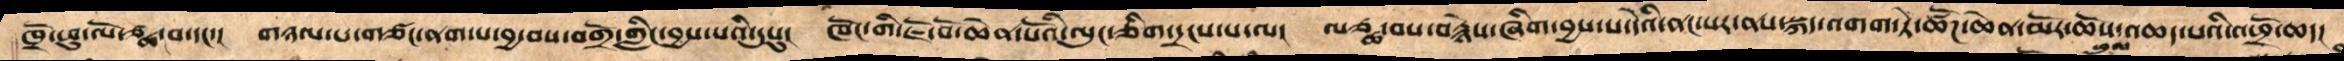ཁྲོ་ཕུ་ལོཙྪ་བ་དང་།   གཉལ་པ་གཙང་ནག་པ་བྱ་བས་བགྲོ་གླིང་བྱས་པའི་དུསུ།  ཁོང་གི་ཇོ་བོ་ཆེན་པོའི་ལུང་ཅིག་དྲངས་པ་ལ།   ལོཙྪ་བས་ཁ་བརྙེས་ཞིག་བྱས་པ་དེའི་ནང་པར་ནས་སྐད་འགག་ཏེ་ཚོཌ་ཆེན་མོར་ཆོས་འཆད་པའི་འཕྲོ་ཆད།
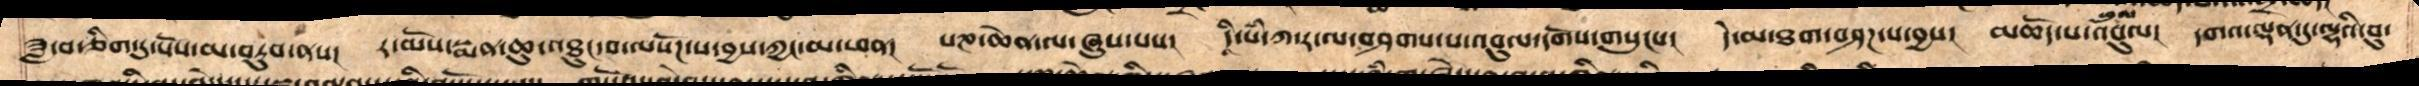ཟླ་བ་ཅིག་དུ་སོས་མ་བཏུབ་ནས།   ར་མོས་སྨན་ཆུང་འཐུང་བ་ལསོཌ་པ་བྱས་ཀྱང་མ་ཕན།  པཎ་ཆེན་ལ་ཞུས་པས།   དཱི་པཾ་ཀ་ར་ལ་བཤགས་པ་འབུལ་དགོས་གསུངས།   དེ་མ་ཐག་བཤཌ་པ་བྱས།  མཆོད་པ་ཕུལ།  དགའ་ལྡན་དུ་ལྷའི་བུ་
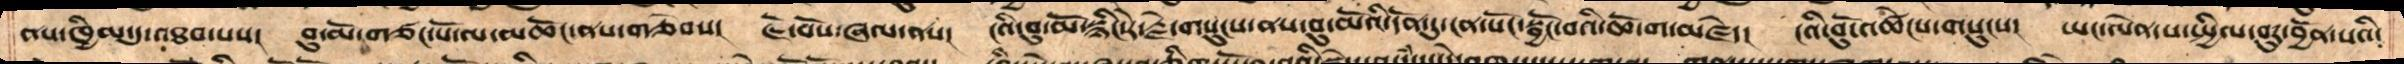ནས་ཁྱིམ་དུ་འཐབ་པས།   བུ་མོ་གཙང་པོ་ལ་མཆོང་ནས་གཅེབས།   ཇོ་བོས་ཞལ་ནས།   ངའི་བུ་མོ་སྙིང་རེ་རྗེ་གསུངས་ནས་བུ་མོའི་དོན་དུ་ངན་སོང་སྦྱོང་བའི་ཆོ་ག་མཛདེ།   ངའི་བུ་མོ་འཚིངས་གསུངས།  ཡང་ལེན་པ་སྤྱིལ་བུར་བྱོན་པའི་
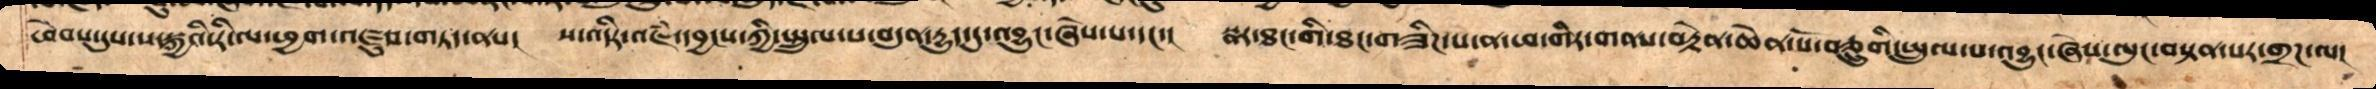ཕེབས་དུས་ས་སྐྱའི་རི་ལ་ཕྱག་འཛུབ་གཏད་ནས།    ས་འདིར་འཇཾ་དབྱངས་ཀྱི་སྤྲུལ་པ་བདུན་དྱུད་དུ་འབྱུང་ཞེས་པ་དང་།   སྣར་ཐང་གི་ཐང་གཟིཌ་པ་ན་ཕ་གིར་གནས་བརྟེན་ཆེན་པོ་བཅྲུགི་སྤྲུལ་པ་འབྱུང་ཞེས་ལུང་བསྟན་པར་གྲཌ་ལ།
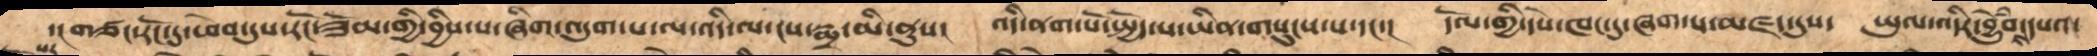དང གཙང་རོང་དུ་ཕེབས་དུས་རོང་ཟོམ་གྱི་་བྱིས་པ་ཞིག་འདུག་པ་ལ་འདི་ལ་ངས་སྨྲ་མི་ནུས།   འདི་ནག་པོ་སྤྱོད་པ་ཡིན་གསུངས་པ་དང་།    དོལ་གྱི་དཔེ་ཁང་དུ་ཞག་པ་མཛད་དུས།   ཡུལ་འདིར་བྱེུཾབས་དཔའ་
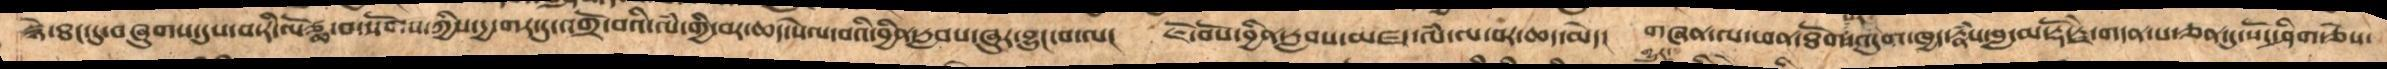སྙེ་ཐང་དུ་བཞུགས་དུས་བ་རི་ལོཙྪ་བ་སོགས་ཀྱིས་དྱ་གར་དུ་འགྲོ་བའི་ལཾ་གྱི་བར་ཆད་སེལ་བའི་བྱིན་རླབས་ཞུར་བྱུང་བ་ལ།   ཇོ་བོས་བྱིན་རླབས་མཛད་ལཾ་ལ་བར་ཆད་མེད།   གཞན་ལ་ཕན་ཐོག་པར་འདུག་ཁྱད་རྣཾས་བླ་མ་རྡོ་རྗེ་གདན་ས་ཅན་དུ་སོང་ཤིག་ཅེས་
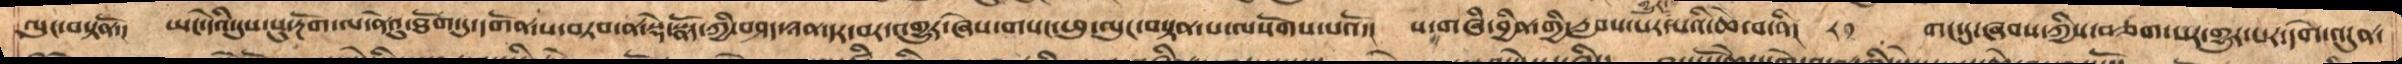ལུང་བསྟནོ་།   ཡང་དེའི་དུས་སུ་རྔོག་ལ་ནེའུ་ཐོག་དུ་དགོན་པ་བཏབ་ན་སྡེ་སྣོད་ཀྱི་བཤད་ཉན་དར་བར་འགྱུར་ཞེས་གསང་ཕུ་ལུང་བསྟན་པ་ལསོགས་པའོ།།   ས་གཞི་བྱིན་གྱི་རླབས་པར་གྱུར་པའི་ཆེ་བ་ནི།  ༨༡ གང་དུ་ཞབས་ཀྱིས་བཅག་པར་གྱུར་པར་དགེ་འདུན་
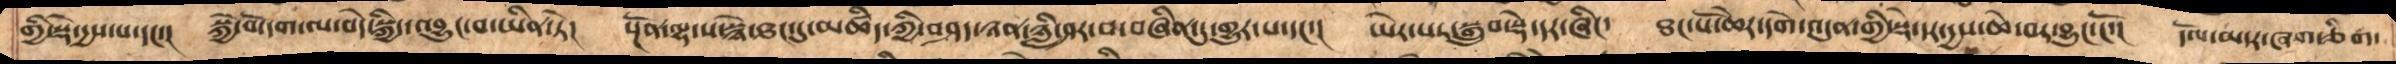གྱི་སྡེ་དྱས་པ་དང་།   སྐྱེ་བོ་དག་ལ་བདེ་སྐྱིད་འབྱུང་བ་ཡིན་ཏེ།   སྔོན་ལྷ་ས་སྙེ་ཐང་དུ་མཚིད་ཀྱི་བཤད་ཉན་ཉླི་ཤར་བ་བཞིན་དུ་གྱུར་པ་དང་།   ཡེར་པར་སྒྲུབ་སྡེ་དར་ཞིང་།   ཐང་པོ་ཆེར་དགེ་འདུན་གྱི་སྡེ་དར་དྱས་ཆེ་བར་བྱུང་།ོ་།   དོལ་མདར་ཞག་ཅིག་
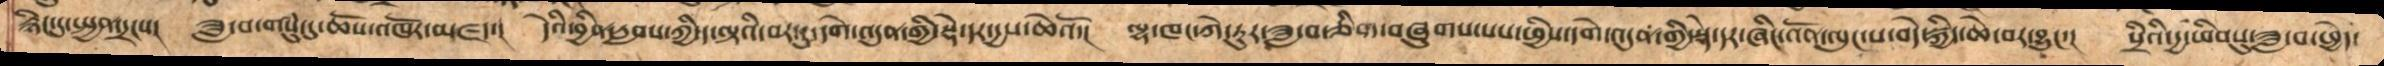རྙིང་དུ་སྤྱན་དྲངས།    ཟླ་བ་གསུཾ་དུ་ཆོས་འཁོར་མཛད།   དེའི་བྱིན་རླབས་ཀྱི་ད་ལྟའི་བར་དུ་དགེ་འདུན་གྱི་སྡེ་དར་དྱས་ཆེའོ།    ལྷ་ཁང་ཀེ་རུར་ཟླ་བ་ཅིག་བཞུགས་པས་ཕྱིས་དགེ་འདུན་གྱི་སྡེ་དར་ཞིང་འོན་ལུང་པ་བདེ་སྐྱིད་ཆེ་བར་བྱུང་།    སྲིའི་དྱ་ཕིབསུ་ཟླ་བ་ཕྱེད་
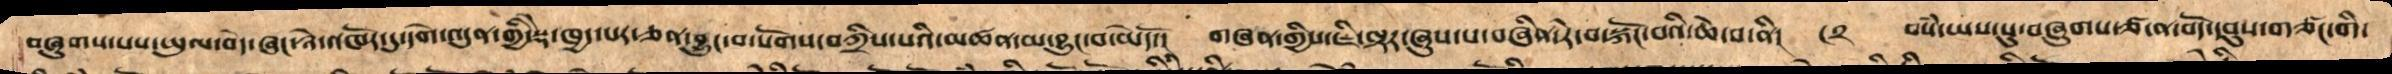བཞུགས་པས་ཡུལ་བདེ་ཞང་ཉེ་འཁོར་དུ་དགེ་འདུན་གྱི་སྡེ་ཁྱད་པར་ཅན་བྱུང་བ་སོགས་བཀྲིས་པའི་མཚན་མ་བྱུང་བ་མེད་དོ།   གཞན་གྱིས་ཇི་ལྟར་ཞུས་པ་བཞིན་རེ་བ་སྐོང་བའི་ཆེ་བ་ནི།  ༨༢ བསཾ་ཡས་སུ་བཞུགས་ཙ་ན་བོད་དབུས་གཙང་གི་
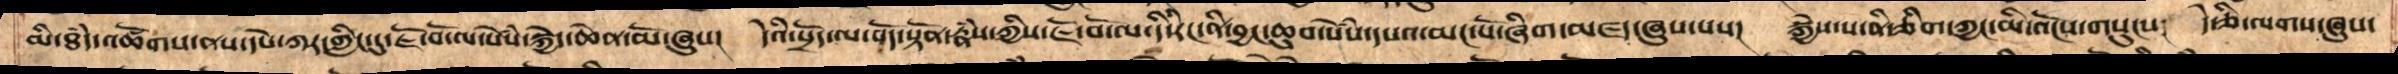མི་ཐཾད་འཚོགས་ནས་དཔེ་ཀར་གླིང་དུ་ཇོ་བོ་ལ་སེཾས་སྐྱེད་ཆེན་མོ་ཞུས།    དེའི་སྲོད་ལ་བོད་སྟོན་རྣཾས་ཀྱིས་ཇོ་བོ་ལ་དེ་རིང་ནི་བྱང་ཆུབ་སེཾས་དཔའ་མང་པོ་ཞིག་མཛད་ཞུས་པས།   སྐྱེས་པ་ནི་ཅིག་ཀྱང་མི་འོངས་གསུངས།  དེ་ཅི་ལགས་ཞུས་
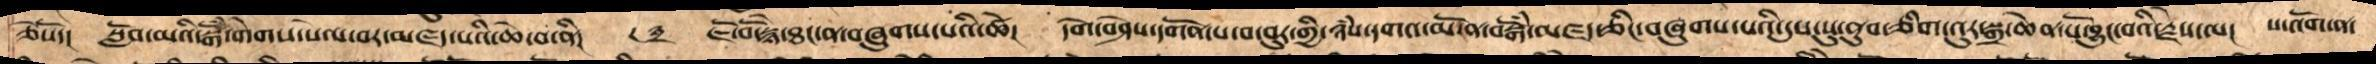ཅེསོ་།    སློབ་མའི་སྒོཾ་གེགས་སེལ་བར་མཛད་པའི་ཆེ་བ་ནི། ༨༣  ཇོ་བོ་སྙེ་ཐང་ན་བཞུགས་པའི་ཚེ།   དགེ་བཤེས་དགོན་པ་བ་བུར་གྱི་ཉཾས་དགའ་མོ་ན་བསྒོཾ་མཛད་ཅིང་བཞུགས་པའི་དུས་སུ་ནུབ་ཅིག་འུར་སྒྲ་ཆེན་པོ་བྱུང་བའི་རྗེས་ལ།  ས་འོག་ན་
